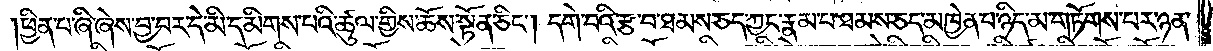ཕྱིན་པ་ཞི་ཞེས་བྱ་བར་དེ་མི་དམིགས་པའི་ཚུལ་གྱིས་ཆོས་སྟོན་ཅིང༌། དགེ་བའི་རྩ་བ་ཐམས་ཅད་ཀྱང་རྣམ་པ་ཐམས་ཅད་མཁྱེན་པ་ཉིད་མ་གཏོགས་པར་ཉན་
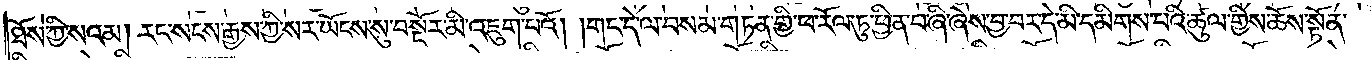ཐོས་ཀྱི་སའམ། རང་སངས་རྒྱས་ཀྱི་སར་ཡོངས་སུ་བསྔོར་མི་འཇུག་པའོ། །གང་དེ་ལ་བསམ་གཏན་གྱི་ཕ་རོལ་ཏུ་ཕྱིན་པ་ཞི་ཞེས་བྱ་བར་དེ་མི་དམིགས་པའི་ཚུལ་གྱིས་ཆོས་སྟོན་
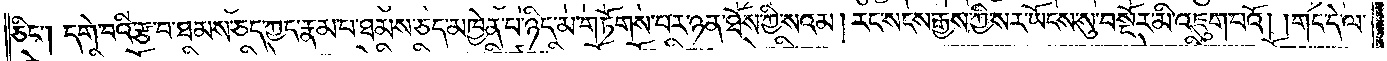ཅིང༌། དགེ་བའི་རྩ་བ་ཐམས་ཅད་ཀྱང་རྣམ་པ་ཐམས་ཅད་མཁྱེན་པ་ཉིད་མ་གཏོགས་པར་ཉན་ཐོས་ཀྱི་སའམ། རང་སངས་རྒྱས་ཀྱི་སར་ཡོངས་སུ་བསྔོར་མི་འཇུག་པའོ། །གང་དེ་ལ་
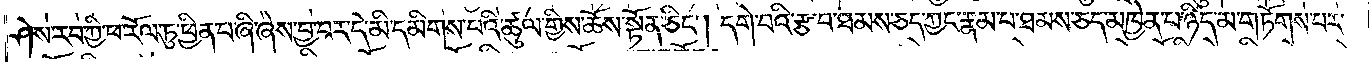ཤེས་རབ་ཀྱི་ཕ་རོལ་ཏུ་ཕྱིན་པ་ཞི་ཞེས་བྱ་བར་དེ་མི་དམིགས་པའི་ཚུལ་གྱིས་ཆོས་སྟོན་ཅིང༌། དགེ་བའི་རྩ་བ་ཐམས་ཅད་ཀྱང་རྣམ་པ་ཐམས་ཅད་མཁྱེན་པ་ཉིད་མ་གཏོགས་པར་
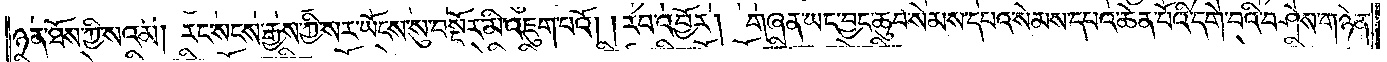ཉན་ཐོས་ཀྱི་སའམ། རང་སངས་རྒྱས་ཀྱི་སར་ཡོངས་སུ་བསྔོར་མི་འཇུག་པའོ། །རབ་འབྱོར། གཞན་ཡང་བྱང་ཆུབ་སེམས་དཔའ་སེམས་དཔའ་ཆེན་པོའི་དགེ་བའི་བཤེས་གཉེན་
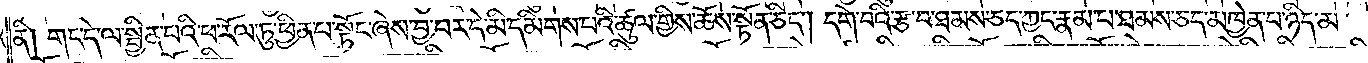ནི། གང་དེ་ལ་སྦྱིན་པའི་ཕ་རོལ་ཏུ་ཕྱིན་པ་སྟོང་ཞེས་བྱ་བར་དེ་མི་དམིགས་པའི་ཚུལ་གྱིས་ཆོས་སྟོན་ཅིང༌། དགེ་བའི་རྩ་བ་ཐམས་ཅད་ཀྱང་རྣམ་པ་ཐམས་ཅད་མཁྱེན་པ་ཉིད་མ་
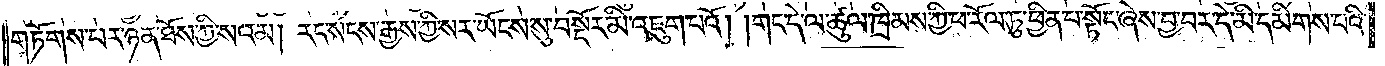གཏོགས་པར་ཉན་ཐོས་ཀྱི་སའམ། རང་སངས་རྒྱས་ཀྱི་སར་ཡོངས་སུ་བསྔོར་མི་འཇུག་པའོ། །གང་དེ་ལ་ཚུལ་ཁྲིམས་ཀྱི་ཕ་རོལ་ཏུ་ཕྱིན་པ་སྟོང་ཞེས་བྱ་བར་དེ་མི་དམིགས་པའི་
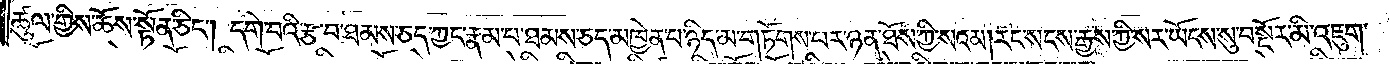ཚུལ་གྱིས་ཆོས་སྟོན་ཅིང༌། དགེ་བའི་རྩ་བ་ཐམས་ཅད་ཀྱང་རྣམ་པ་ཐམས་ཅད་མཁྱེན་པ་ཉིད་མ་གཏོགས་པར་ཉན་ཐོས་ཀྱི་སའམ། རང་སངས་རྒྱས་ཀྱི་སར་ཡོངས་སུ་བསྔོར་མི་འཇུག་
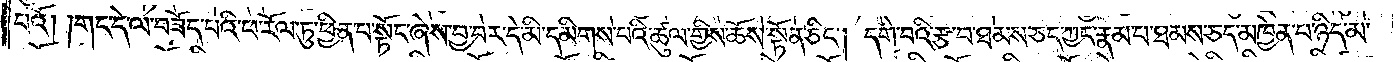པའོ། །གང་དེ་ལ་བཟོད་པའི་ཕ་རོལ་ཏུ་ཕྱིན་པ་སྟོང་ཞེས་བྱ་བར་དེ་མི་དམིགས་པའི་ཚུལ་གྱིས་ཆོས་སྟོན་ཅིང༌། དགེ་བའི་རྩ་བ་ཐམས་ཅད་ཀྱང་རྣམ་པ་ཐམས་ཅད་མཁྱེན་པ་ཉིད་མ་
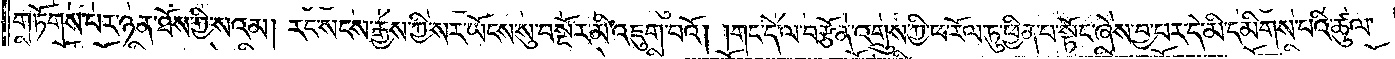གཏོགས་པར་ཉན་ཐོས་ཀྱི་སའམ། རང་སངས་རྒྱས་ཀྱི་སར་ཡོངས་སུ་བསྔོར་མི་འཇུག་པའོ། །གང་དེ་ལ་བརྩོན་འགྲུས་ཀྱི་ཕ་རོལ་ཏུ་ཕྱིན་པ་སྟོང་ཞེས་བྱ་བར་དེ་མི་དམིགས་པའི་ཚུལ་
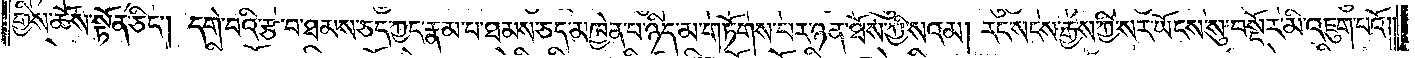གྱིས་ཆོས་སྟོན་ཅིང༌། དགེ་བའི་རྩ་བ་ཐམས་ཅད་ཀྱང་རྣམ་པ་ཐམས་ཅད་མཁྱེན་པ་ཉིད་མ་གཏོགས་པར་ཉན་ཐོས་ཀྱི་སའམ། རང་སངས་རྒྱས་ཀྱི་སར་ཡོངས་སུ་བསྔོར་མི་འཇུག་པའོ༎
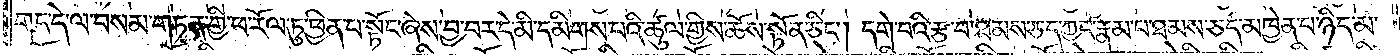གང་དེ་ལ་བསམ་གཏན་གྱི་ཕ་རོལ་ཏུ་ཕྱིན་པ་སྟོང་ཞེས་བྱ་བར་དེ་མི་དམིགས་པའི་ཚུལ་གྱིས་ཆོས་སྟོན་ཅིང༌། དགེ་བའི་རྩ་བ་ཐམས་ཅད་ཀྱང་རྣམ་པ་ཐམས་ཅད་མཁྱེན་པ་ཉིད་མ་
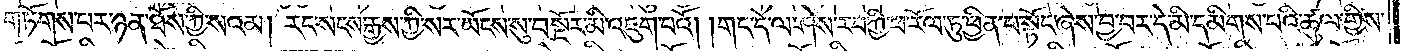གཏོགས་པར་ཉན་ཐོས་ཀྱི་སའམ། རང་སངས་རྒྱས་ཀྱི་སར་ཡོངས་སུ་བསྔོར་མི་འཇུག་པའོ། །གང་དེ་ལ་ཤེས་རབ་ཀྱི་ཕ་རོལ་ཏུ་ཕྱིན་པ་སྟོང་ཞེས་བྱ་བར་དེ་མི་དམིགས་པའི་ཚུལ་གྱིས་
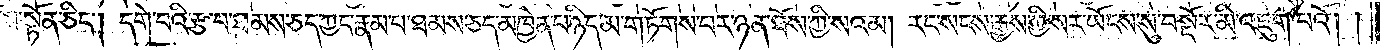ཆོས་སྟོན་ཅིང༌། དགེ་བའི་རྩ་བ་ཐམས་ཅད་ཀྱང་རྣམ་པ་ཐམས་ཅད་མཁྱེན་པ་ཉིད་མ་གཏོགས་པར་ཉན་ཐོས་ཀྱི་སའམ། རང་སངས་རྒྱས་ཀྱི་སར་ཡོངས་སུ་བསྔོར་མི་འཇུག་པའོ། །
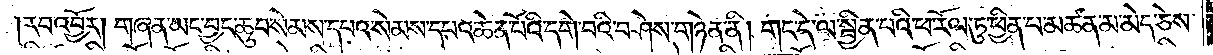རབ་འབྱོར། གཞན་ཡང་བྱང་ཆུབ་སེམས་དཔའ་སེམས་དཔའ་ཆེན་པོའི་དགེ་བའི་བཤེས་གཉེན་ནི། གང་དེ་ལ་སྦྱིན་པའི་ཕ་རོལ་ཏུ་ཕྱིན་པ་མཚན་མ་མེད་ཅེས་
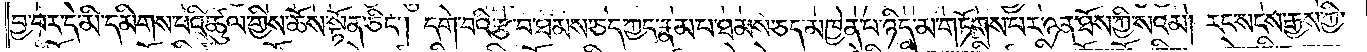བྱ་བར་དེ་མི་དམིགས་པའི་ཚུལ་གྱིས་ཆོས་སྟོན་ཅིང༌། དགེ་བའི་རྩ་བ་ཐམས་ཅད་ཀྱང་རྣམ་པ་ཐམས་ཅད་མཁྱེན་པ་ཉིད་མ་གཏོགས་པར་ཉན་ཐོས་ཀྱི་སའམ། རང་སངས་རྒྱས་ཀྱི་
